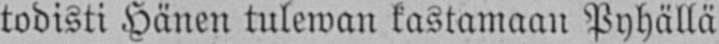todisti Hänen tulewan kastamaan Pyhällä
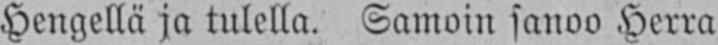Hengellä ja tulella. Samoin sanoo Herra
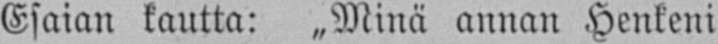Esaian kantta: „Minä annan Henkeni
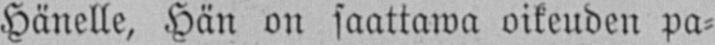Hänelle, Hän on saattawa oikeuden pa-
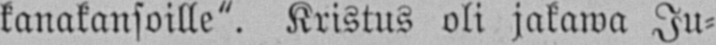kanakansoille". Kristus oli jakawa Ju-
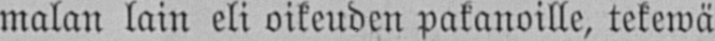malan lain eli oikeuden pakanoille, tekewä
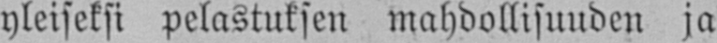yleiseksi pelastuksen mahdollisuuden ja
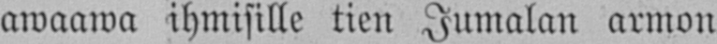awaawa ihmisille tien Jumalan armon
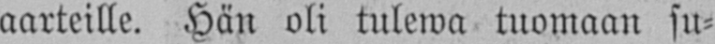aarteille. Hän oli tulewa tuomaan su-
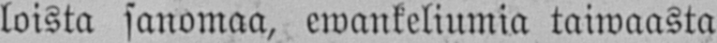loista sanomaa, ewankeliumia taiwaasta
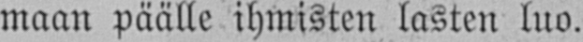maan päälle ihmisten lasten luo.
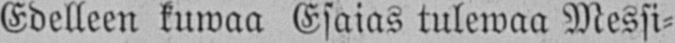Edelleen kuwaa Esaias tulewaa Messi-
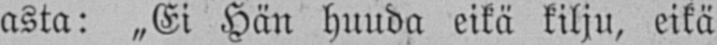asta: „Ei Hän huuda eikä kilju, eikä
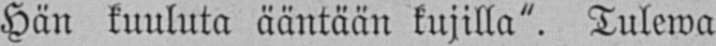Hän kuuluta ääntään kujilla". Tulewa
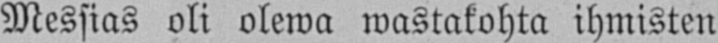Messias oli olewa wastakohta ihmisten
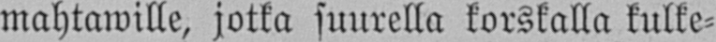mahtawille, jotka suurella korskalla kulke-
